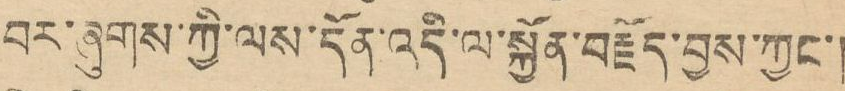བར་ཞུགས་ཀྱི་ལས་དོན་འདི་ལ་སྐྱོན་བརྗོད་བྱས་ཀྱང་།
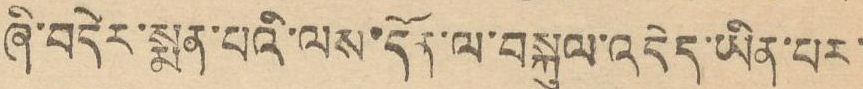ཞི་བདེར་སྨན་པའི་ལས་དོན་ལ་བསྐུལ་འདེད་ཡིན་པར་
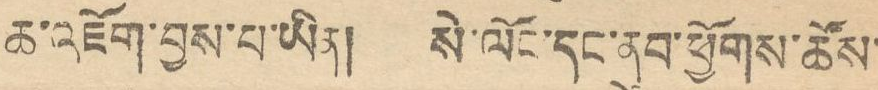ཆ་འཇོག་བྱས་ཡིན། སེ་ལོང་དང་ནུབ་ཕྱོགས་ཚོས་
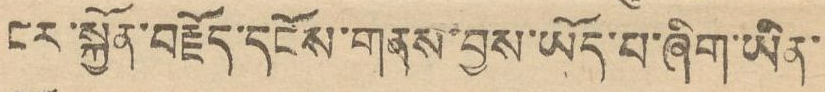ངར་སྐྱོན་བརྗོད་དངོས་གནས་བྱས་ཡོད་པ་ཞིག་ཡིན་
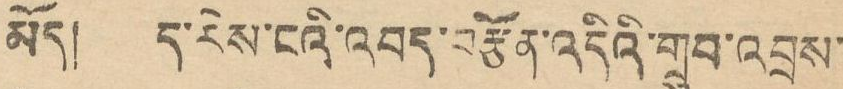མོད། ད་རེས་ངའི་འབད་བརྩོན་འདིའི་གྲུབ་འབྲས་
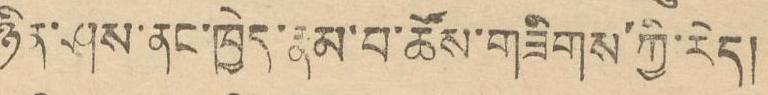ཉིན་ཤས་ནང་ཁྱེད་རྣམ་བ་ཚོས་གཟིགས་ཀྱི་རེད།
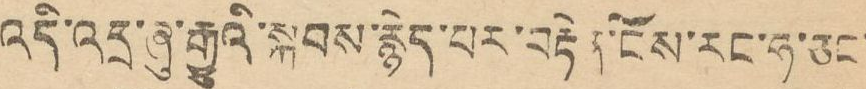འདི་འདྲ་ཞུ་རྒྱུའི་སྐབས་རྙེད་པར་བརྟེན་ངོས་རང་ཧ་ཅང་
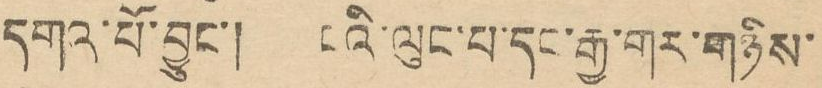དགའ་པོ་བྱུང་། ངའི་ལུང་པ་དང་རྒྱ་གར་གཉིས་
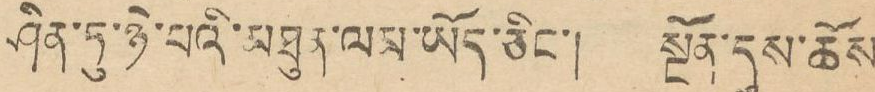ཤིན་ཏུ་ཉེ་པའི་མཐུན་ལམ་ཡོད་ཅིང་། སྔོན་དུས་ཆོས
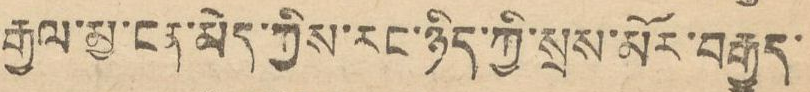རྒྱལ་མྱ་ངན་མེད་ཀྱིས་རང་ཉིད་ཀྱི་སྲས་མོར་བརྒྱུད་
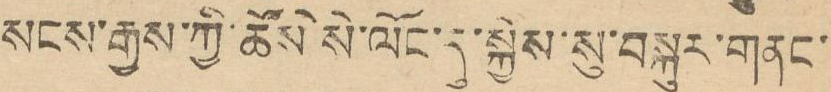སངས་རྒྱས་ཀྱི་ཆོས་སེ་ལོང་དུ་སྐྱེས་སུ་བསྐུར་གནང་
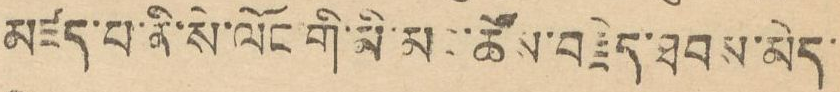མཛད་པ་ནི་སེ་ལོང་གི་མི་མང་ཚོས་བརྗེད་ཐབས་མེད་
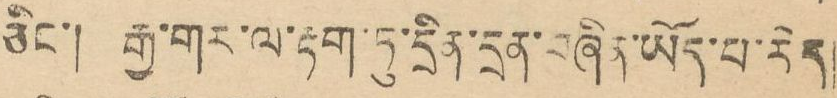ཅིང་། རྒྱ་གར་ལ་རྟག་ཏུ་དྲིན་བཞིན་ཡོད་པ་རེད།
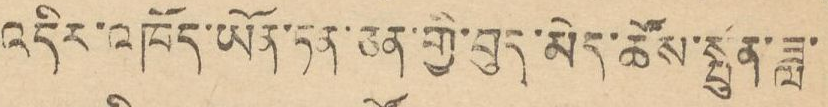འདིར་འཁོད་ཡོན་ཏན་ཅན་གྱི་བུད་མེད་ཆོས་སྤུན་ཟླ་
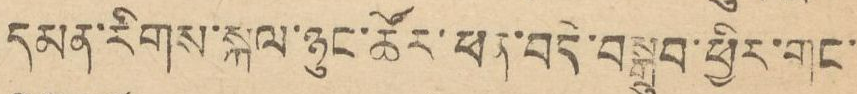དམན་རིགས་སྐལ་ཉུང་ཚོར་ཕན་བདེ་བསྒྲུབ་ཕྱིར་གང་
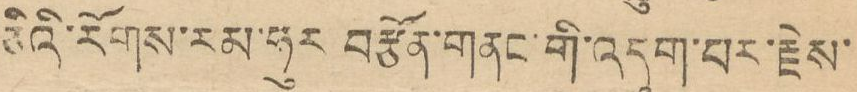ཅིའི་རོགས་རམ་ཧུར བརྩོན་གནང་གི་འདུག་པར་རྗེས་
